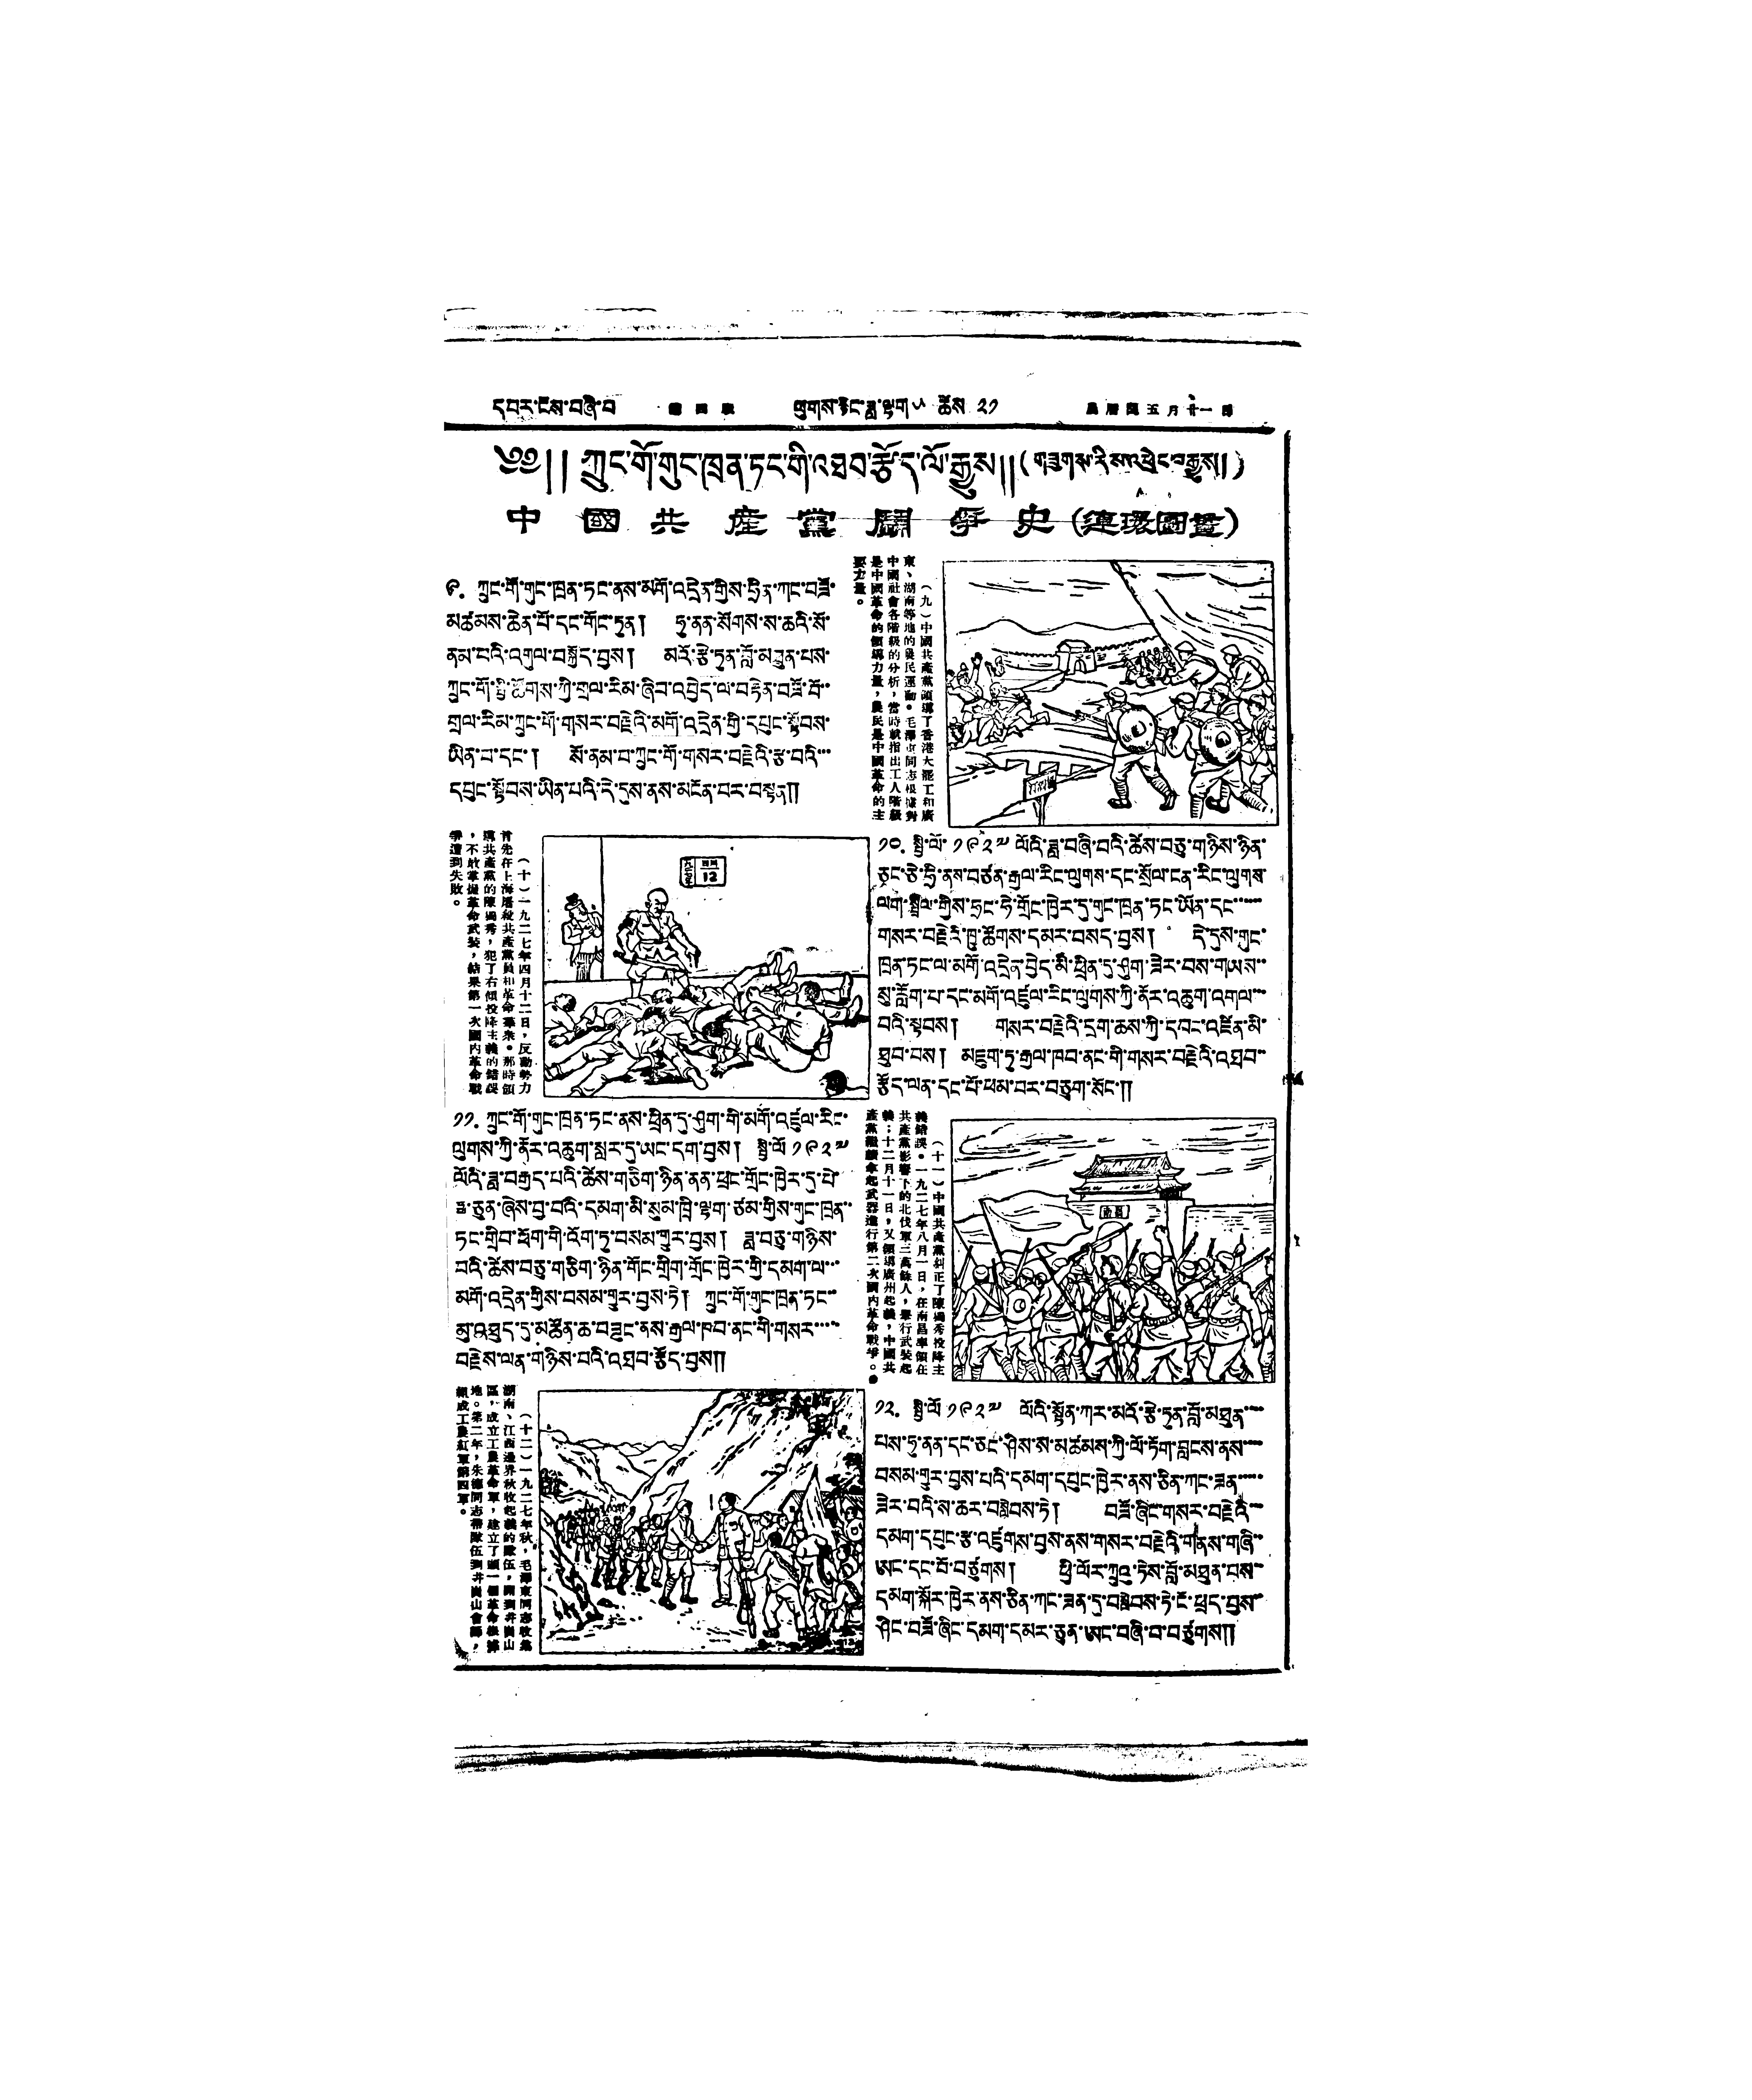དཔར་ངོས་བཞི་པ 第四版 ལུགས་རྙིང་ཟླ་ལྷག་༥ ཚེས ༢༡ 農曆閏五月廿一日
༄༅།། ཀྲུང་གོ་གུང་ཁྲན་ཏང་གི་འཐབ་རྩོད་ལོ་རྒྱུས།། (གཟུགས་རིས་འཕྲེང་བརྒྱུས།)
中 國 共 產 黨 鬥 爭 史（連環圖畫）
（九）中國共產黨領導了香港大罷工和廣
東、湖南等地的農民運動。毛澤東同志根據對
中國社會各階級的分析，當時就指出工人階級
是中國革命的領導力量，農民是中國革命的主
要力量。
༩. ཀྲུང་གོ་གུང་ཁྲན་ཏང་ནས་མགོ་འདྲེན་གྱིས་ཧྲིན་ཀང་བཟོ་
མཚམས་ཆེན་པོ་དང་གོང་ཏུན། ཧུ་ནན་སོགས་ས་ཆའི་སོ་
ནམ་པའི་འགུལ་བསྐྱོད་བྱས། མའོ་རྩེ་ཏུན་བློ་མཐུན་པས་
ཀྲུང་གོ་སྤྱི་ཚོགས་ཀྱི་གྲལ་རིམ་ཞིབ་འབྱེད་ལ་བརྟེན་བཟོ་བོ་་
གྲལ་རིམ་ཀྲུང་གོ་གསར་བརྗེའི་མགོ་འདྲེན་གྱི་དཔུང་སྟོབས་
ཡིན་པ་དང་། སོ་ནམ་པ་ཀྲུང་གོ་གསར་བརྗེའི་རྩ་བའི་་
དཔུང་སྟོབས་ཡིན་པའི་དེ་དུས་ནས་མངོན་བར་བསྟན༎
（十）一九二七年四月十二日，反動勢力
首先在上海屠殺共產黨員和革命羣衆。那時領
導共產黨的陳獨秀，犯了右傾投降主義的錯誤
，不敢掌握革命武裝，結果第一次國內革命戰
爭遭到失敗。
༡༠. སྤྱི་ལོའི་ ༡༩༢༧ ལོའི་ཟླ་བཞི་བའི་ཚེས་བཅུ་གཉིས་ཉིན་
ཅང་ཅེ་ཧྲི་ནས་བཙན་རྒྱལ་རིང་ལུགས་དང་སྲོལ་ངན་རིང་ལུགས་
ལག་སྦྲིལ་གྱིས་ཧྲང་ཧེ་གྲོང་ཁྱེར་དུ་གུང་ཁྲན་ཏང་ཡོན་དང་་་་་་
གསར་བརྗེའི་ཁྱུ་ཚོགས་དམར་བསད་བྱས། དེ་དུས་གུང་
ཁྲན་ཏང་ལ་མགོ་འདྲེན་བྱེད་མི་ཕྲིན་དུ་ཤུག་ཟེར་བས་གཡས་་
སུ་རློག་པ་དང་མགོ་འཛུལ་རིང་ལུགས་ཀྱི་ནོར་འཆུག་འགལ་་་
བའི་སྟབས། གསར་བརྗེའི་དྲག་ཆས་ཀྱི་དབང་འཛིན་མི་
ཐུབ་པས། མཇུག་ཏུ་རྒྱལ་ཁབ་ནང་གི་གསར་བརྗེའི་འཐབ་་
རྩོད་ལན་དང་པོ་ཕམ་བར་བཅུག་སོང་༎
（十一）中國共產黨糾正了陳獨秀投降主
義錯誤。一九二七年八月一日，在南昌率領在
共產黨影響下的北伐軍三萬餘人，舉行武裝起
義；十二月十一日，又領導廣州起義，中國共
產黨繼續拿起武器進行第二次國內革命戰爭。
༡༡. ཀྲུང་གོ་གུང་ཁྲན་ཏང་ནས་ཕྲིན་དུ་ཤུག་གི་མགོ་འཛུལ་རིང་
ལུགས་ཀྱི་ནོར་འཆུག་སླར་དུ་ཡང་དག་བྱས། སྤྱི་ལོ ༡༩༢༧
ལོའི་ཟླ་བརྒྱད་པའི་ཚེས་གཅིག་ཉིན་ནན་ཕྲང་གྲོང་ཁྱེར་དུ་པེ་
ཧྥ་ཅུན་ཞེས་བྱ་བའི་དམག་མི་སུམ་ཁྲི་ལྷག་ཙམ་གྱིས་གུང་ཁྲན་་
ཏང་གྲིབ་ཕོག་གི་འོག་ཏུ་བསམ་གྱུར་བྱས། ཟླ་བཅུ་གཉིས་
བའི་ཚེས་བཅུ་གཅིག་ཉིན་གོང་གྲིག་གྲོང་ཁྱེར་གྱི་དམག་ལ་་་
མགོ་འདྲེན་གྱིས་བསམ་གྱུར་བྱས་ཏེ། ཀྲུང་གོ་གུང་ཁྲན་ཏང་་
མུ་འཐུད་དུ་མཚོན་ཆ་བཟུང་ནས་རྒྱལ་ཁབ་ནང་གི་གསར་་་་་
བརྗེས་ལན་གཉིས་པའི་འཐབ་རྩོད་བྱས༎
（十二）一九二七年秋，毛澤東同志收集
湖南、江西邊界秋收起義的隊伍，開到井崗山
區，成立工農革命軍，建立了頭一個革命根據
地。第二年，朱德同志帶隊伍到井崗山會師，
組成工農紅軍第四軍。
༡༢. སྤྱི་ལོ་ ༡༩༢༧ ལོའི་སྟོན་ཀར་མའོ་རྩེ་ཏུན་བློ་མཐུན་་་་
པས་ཧུ་ནན་དང་ཅང་ཤིས་ས་མཚམས་ཀྱི་ལོ་ཏོག་བླངས་ནས་་་་་
བསམ་གྱུར་བྱས་པའི་དམག་དཔུང་ཁྱེར་ནས་ཅིན་ཀང་ཟན་་་་
ཟེར་བའི་ས་ཆར་བསླེབས་ཏེ། བཟོ་ཞིང་གསར་བརྗེའི་་་
དམག་དཔུང་རྩ་འཛུགས་བྱས་ནས་གསར་བརྗེའི་གནས་གཞི་་
ཨང་དང་པོ་བཙུགས། ཕྱི་ལོར་ཀྲུའུ་ཏེས་བློ་མཐུན་པས་་
དམག་སྐོར་ཁྱེར་ནས་ཅིན་ཀང་ཟན་དུ་བསླེབས་ཏེ་ངོ་ཕྲད་བྱས་་
ཤིང་བཟོ་ཞིང་དམག་དམར་ཅུན་ཨང་བཞི་བ་བཙུགས༎
